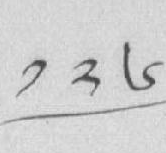༡༢༦
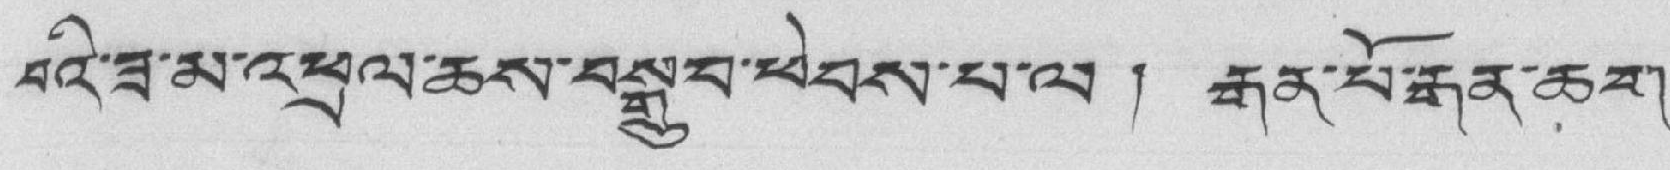བའི་ཟ་མ་འཕྲལ་ཆས་བསྒྲུབ་ཕེབས་པ་ལ ། རྒན་པོ་རྒན་ཆག་
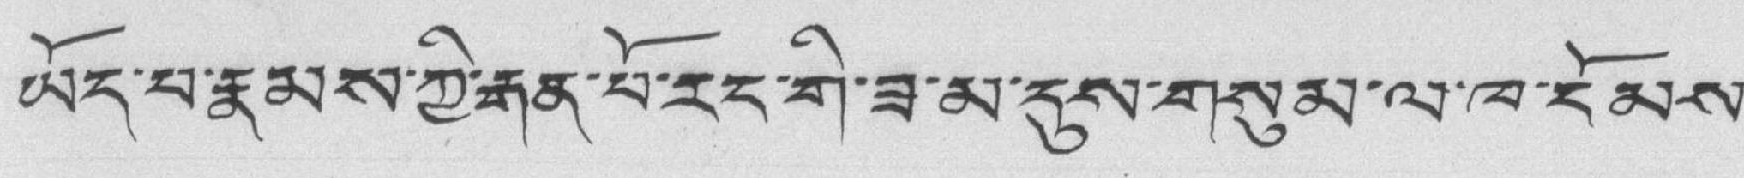ཡོད་པ་རྣམས་ཀྱི་རྒན་པོ་རང་གི་ཟ་མ་དུས་གསུམ་ལ་ཁ་ངོམས་
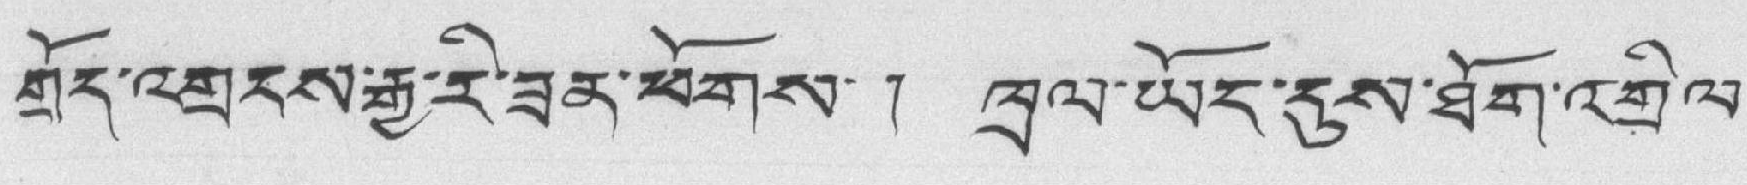གྲོད་འགྲངས་རྒྱ་རི་ཟན་ཕོགས་ ། ཁྲལ་ཡོང་དུས་ཐོག་འགྲིལ་
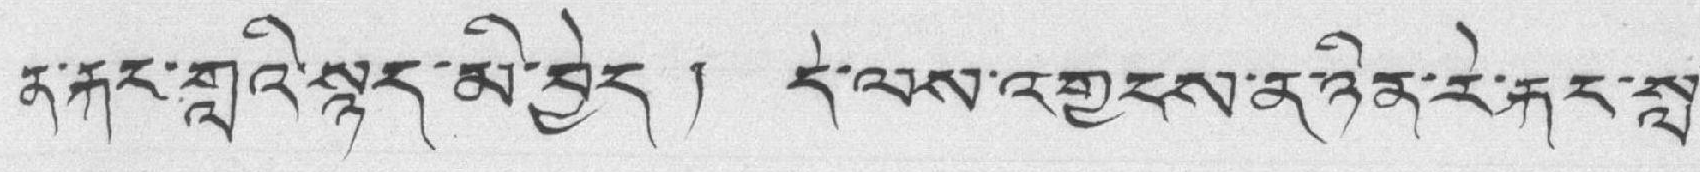ན་རྐང་གླའི་སྙད་མི་བྱེད ། དེ་ལས་འགྱངས་ན་ཉིན་རེ་རྐང་སླ་
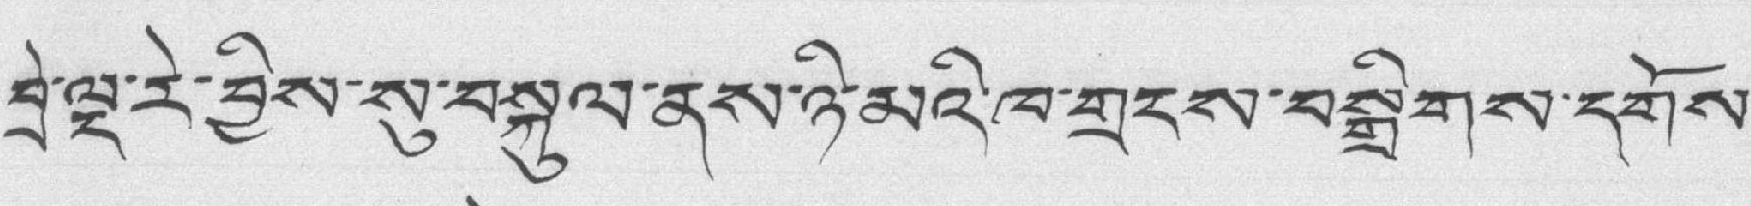བྲེ་ལྔ་རེ་བྱིས་སུ་བསྐུལ་ནས་ཉི་མའི་ཁ་གྲངས་བསྒྲིགས་དགོས་
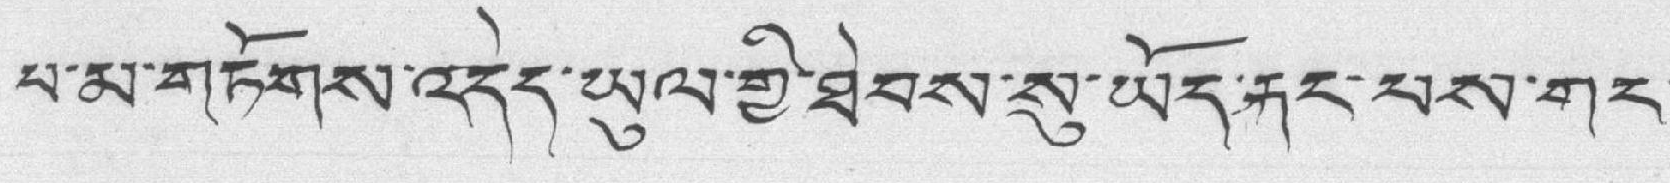པ་མ་གཏོགས་འདེད་ཡུལ་གྱི་ཐེབས་སུ་ཡོད་རྐང་པས་གང་
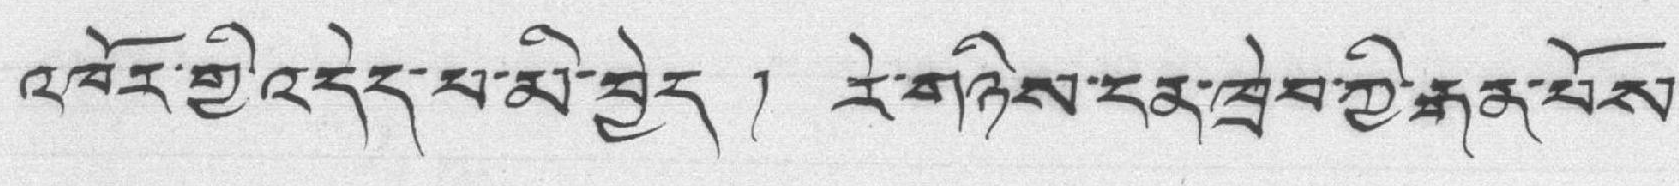འཁོར་གྱི་འདེད་པ་མི་བྱེད ། རེ་གཉིས་ངན་ཁྲེབ་ཀྱི་རྒན་པོས་
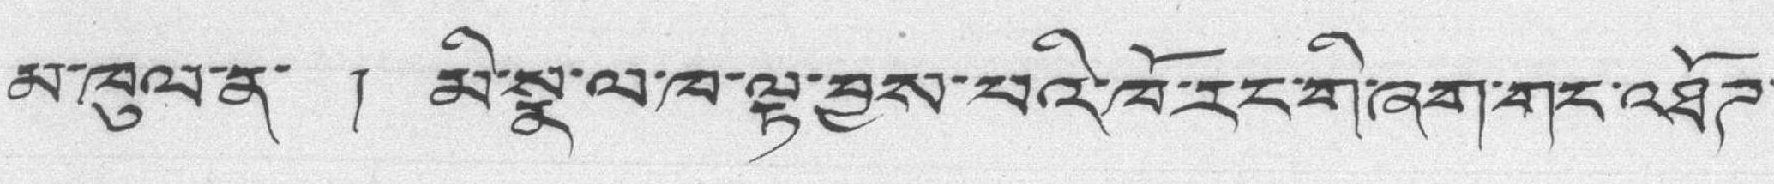མ་ཁུལ་ན་ ། མི་སྣ་ལ་ཁ་ལྟ་བྱས་པའི་ཁོ་རང་གཞག་གང་འཐོཊ་
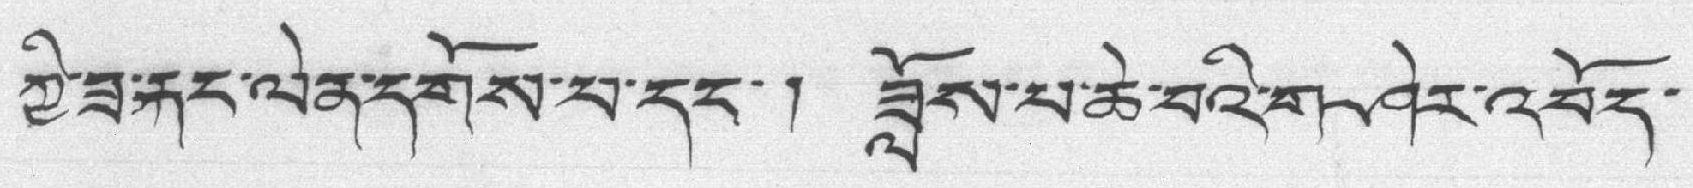ཀྱི་ཟ་རྐང་ལེན་དགོས་པ་དང་། ཟློས་པ་ཆེ་བའི་གཤེར་འབོད་
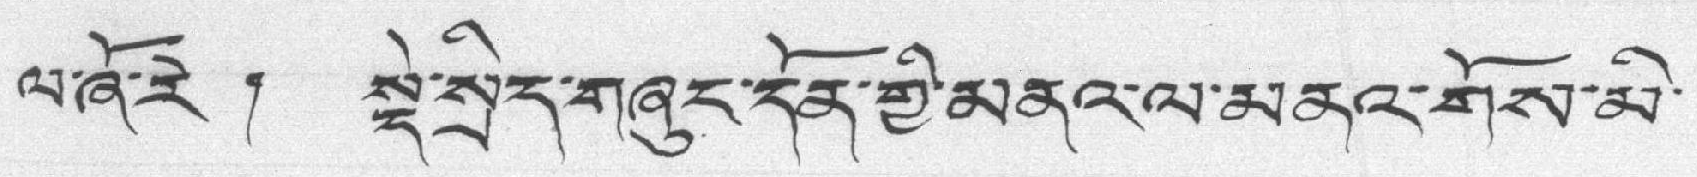ལ་ཞོ་རེ ། སྡེ་སྲིད་གཞུང་དོན་གྱི་མནའ་ལ་མནའ་གོས་མི་
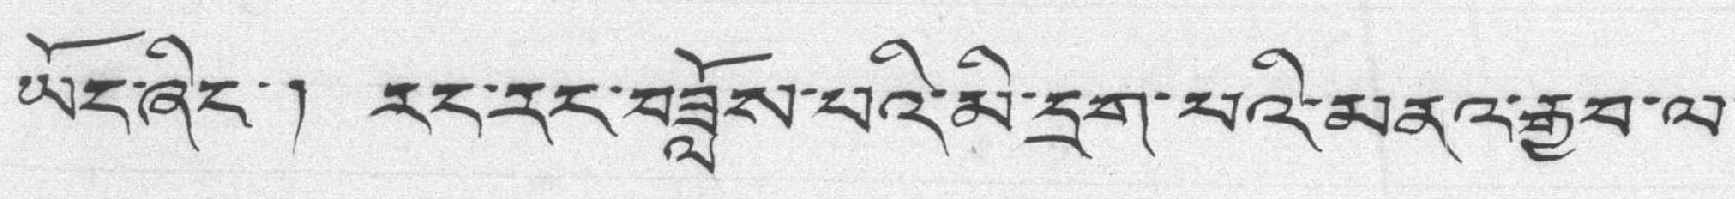ཡོང་ཞིང་། རང་རང་བཟློས་པའི་མི་དྲག་པའི་མནའ་རྒྱབ་ལ་
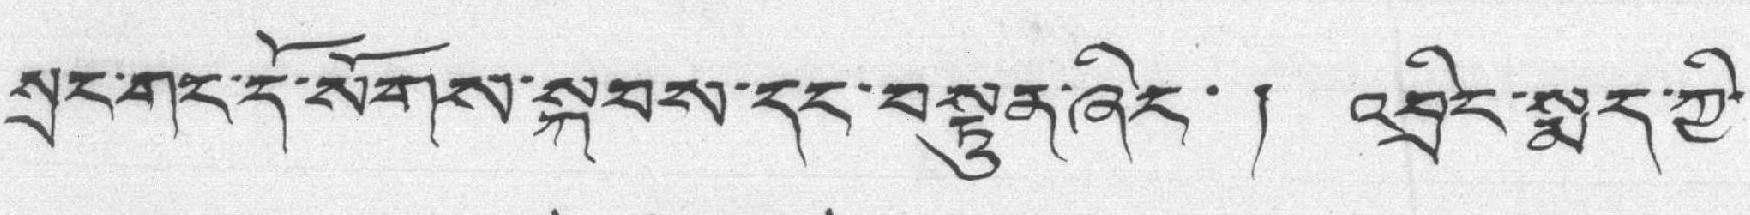སྲང་གང་དོ་སོགས་སྐབས་དང་བསྟུན་ཞིང་ ། འབྲིང་སྨད་ཀྱི་
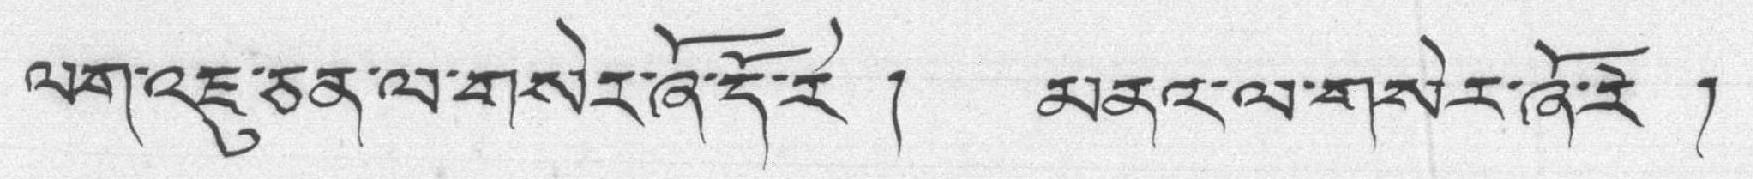ལག་འཇུ་ཅན་ལ་གསེར་ཞོ་དོ་རེ ། མནའ་ལ་གསེར་ཞོ་རེ །
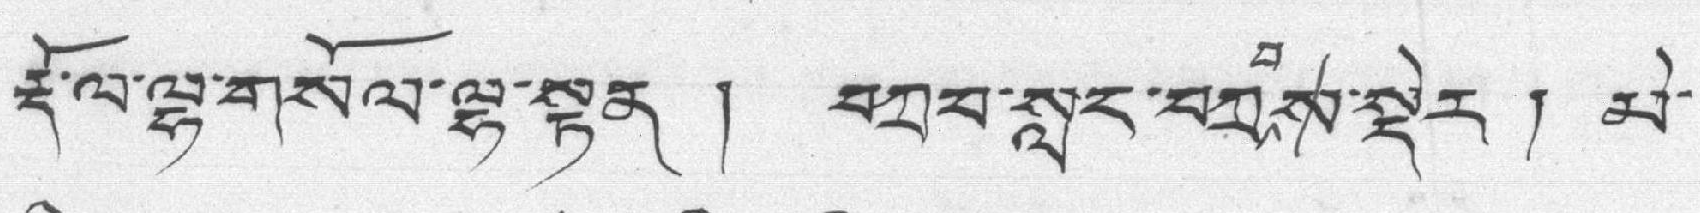རྡོ་ལ་ལྷ་གསལ་ལྷ་སྟན ། བཀྲབ་སླང་བཀྲབས་སྡེར། མེ་
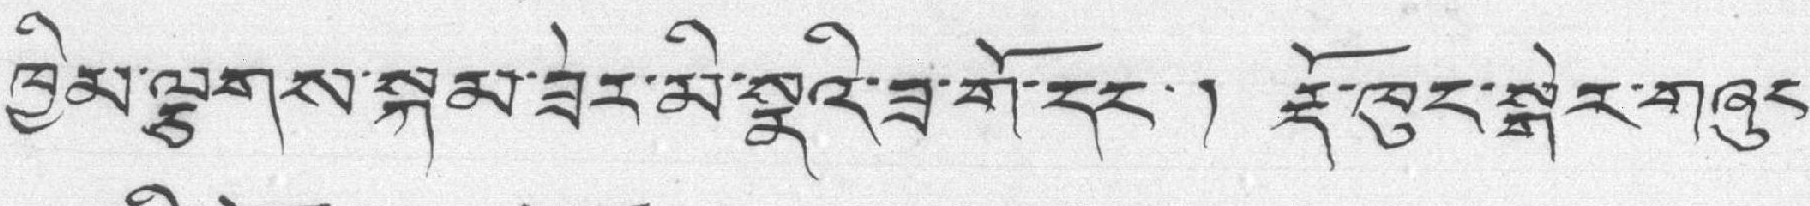ཁྱིམ་ལྕགས་སྐམ་ཟེར་མི་སྣའི་ཟ་གོ་དང་། རྡོ་ཁུང་སྒེར་གཞུང་
